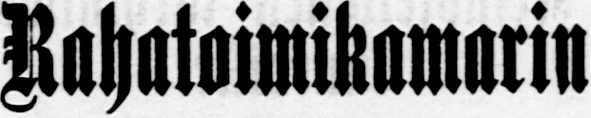Ruhatoimikamarin
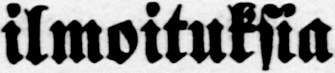ilmoituksia.
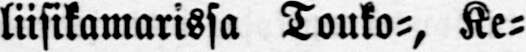Poliisikamarissa Touko-, Ke-
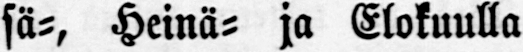sä-, Heinä- ja Elokuulla
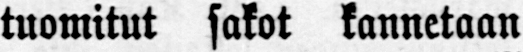tuomitut sakot kannetaan
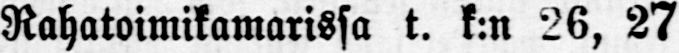Rahatoimikamarissa t. k:n 26, 27
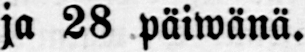ja 28 päiwänä.
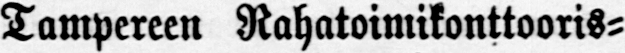Tampereen Rahatoimikonttooris-
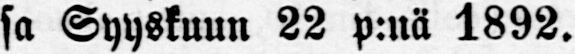sa Syyskuun 22 p:nä 1892.
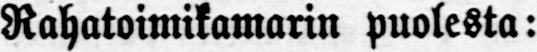Rahatoimikamarin puolesta:
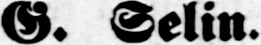G. Selin.
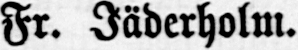Fr. Jäderholm.
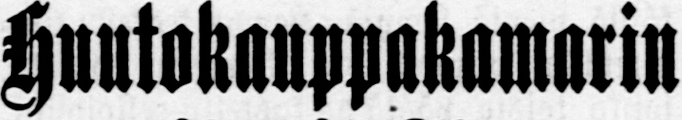Houtokauppakamarin
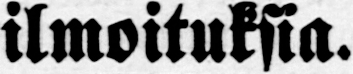ilmoituksia.
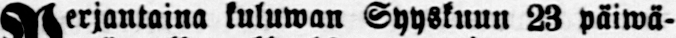Perjantaina kuluwan Syyskuun 23 päiwä-
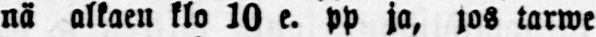nä alkaen klo 10 e. pp ja, jos tarwe
